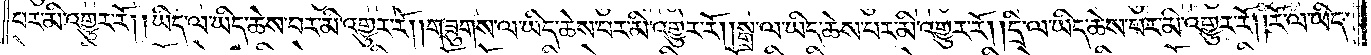པར་མི་འགྱུར་རོ། །ཡིད་ལ་ཡིད་ཆེས་པར་མི་འགྱུར་རོ། །གཟུགས་ལ་ཡིད་ཆེས་པར་མི་འགྱུར་རོ། །སྒྲ་ལ་ཡིད་ཆེས་པར་མི་འགྱུར་རོ། །དྲི་ལ་ཡིད་ཆེས་པར་མི་འགྱུར་རོ། །རོ་ལ་ཡིད་
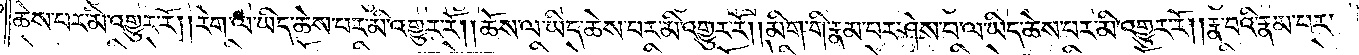ཆེས་པར་མི་འགྱུར་རོ། །རེག་ལ་ཡིད་ཆེས་པར་མི་འགྱུར་རོ། །ཆོས་ལ་ཡིད་ཆེས་པར་མི་འགྱུར་རོ། །མིག་གི་རྣམ་པར་ཤེས་པ་ལ་ཡིད་ཆེས་པར་མི་འགྱུར་རོ། །རྣ་བའི་རྣམ་པར་
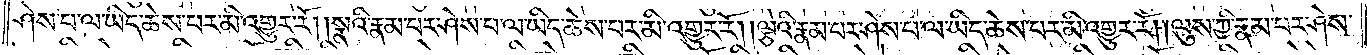ཤེས་པ་ལ་ཡིད་ཆེས་པར་མི་འགྱུར་རོ། །སྣའི་རྣམ་པར་ཤེས་པ་ལ་ཡིད་ཆེས་པར་མི་འགྱུར་རོ། །ལྕེའི་རྣམ་པར་ཤེས་པ་ལ་ཡིད་ཆེས་པར་མི་འགྱུར་རོ། །ལུས་ཀྱི་རྣམ་པར་ཤེས་
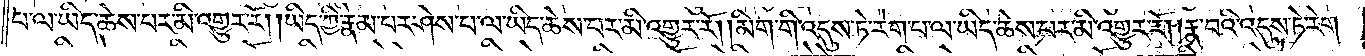པ་ལ་ཡིད་ཆེས་བར་མི་འགྱུར་རོ། །ཡིད་ཀྱི་རྣམ་པར་ཤེས་པ་ལ་ཡིད་ཆེས་པར་མི་འགྱུར་རོ། །མིག་གི་འདུས་ཏེ་རེག་པ་ལ་ཡིད་ཆེས་པར་མི་འགྱུར་རོ། །རྣ་བའི་འདུས་ཏེ་རེག་
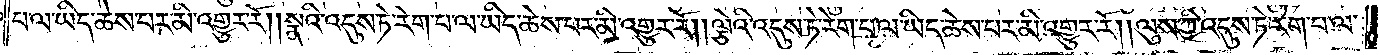པ་ལ་ཡིད་ཆེས་པར་མི་འགྱུར་རོ། །སྣའི་འདུས་ཏེ་རེག་པ་ལ་ཡིད་ཆེས་པར་མི་འགྱུར་རོ། །ལྕེའི་འདུས་ཏེ་རེག་པ་ལ་ཡིད་ཆེས་པར་མི་འགྱུར་རོ། །ལུས་ཀྱི་འདུས་ཏེ་རེག་པ་ལ་
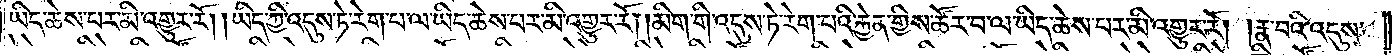ཡིད་ཆེས་པར་མི་འགྱུར་རོ། །ཡིད་ཀྱི་འདུས་ཏེ་རེག་པ་ལ་ཡིད་ཆེས་པར་མི་འགྱུར་རོ། །མིག་གི་འདུས་ཏེ་རེག་པའི་རྐྱེན་གྱིས་ཚོར་བ་ལ་ཡིད་ཆེས་པར་མི་འགྱུར་རོ། །རྣ་བའི་འདུས་
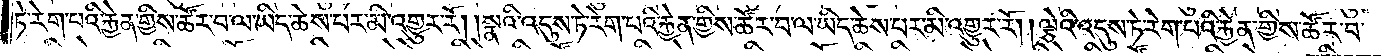ཏེ་རེག་པའི་རྐྱེན་གྱིས་ཚོར་བ་ལ་ཡིད་ཆེས་པར་མི་འགྱུར་རོ། །སྣའི་འདུས་ཏེ་རེག་པའི་རྐྱེན་གྱིས་ཚོར་བ་ལ་ཡིད་ཆེས་པར་མི་འགྱུར་རོ། །ལྕེའི་འདུས་ཏེ་རེག་པའི་རྐྱེན་གྱིས་ཚོར་བ་
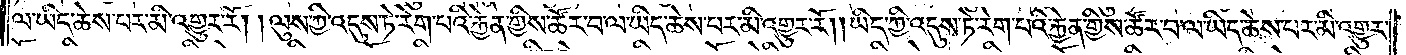ལ་ཡིད་ཆེས་པར་མི་འགྱུར་རོ། །ལུས་ཀྱི་འདུས་ཏེ་རེག་པའི་རྐྱེན་གྱིས་ཚོར་བ་ལ་ཡིད་ཆེས་པར་མི་འགྱུར་རོ། །ཡིད་ཀྱི་འདུས་ཏེ་རེག་པའི་རྐྱེན་གྱིས་ཚོར་བ་ལ་ཡིད་ཆེས་པར་མི་འགྱུར་
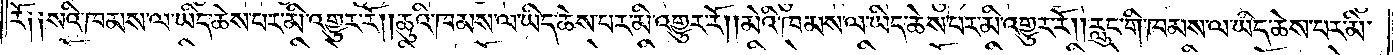རོ༑ ༑སའི་ཁམས་ལ་ཡིད་ཆེས་པར་མི་འགྱུར་རོ། །ཆུའི་ཁམས་ལ་ཡིད་ཆེས་པར་མི་འགྱུར་རོ། །མེའི་ཁམས་ལ་ཡིད་ཆེས་པར་མི་འགྱུར་རོ། །རླུང་གི་ཁམས་ལ་ཡིད་ཆེས་པར་མི་
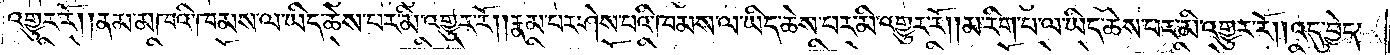འགྱུར་རོ། །ནམ་མཁའི་ཁམས་ལ་ཡིད་ཆེས་པར་མི་འགྱུར་རོ། །རྣམ་པར་ཤེས་པའི་ཁམས་ལ་ཡིད་ཆེས་པར་མི་འགྱུར་རོ། །མ་རིག་པ་ལ་ཡིད་ཆེས་པར་མི་འགྱུར་རོ། །འདུ་བྱེད་
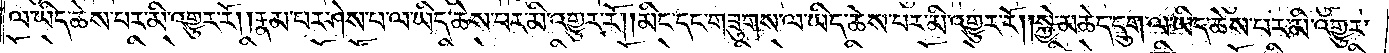ལ་ཡིད་ཆེས་པར་མི་འགྱུར་རོ། །རྣམ་པར་ཤེས་པ་ལ་ཡིད་ཆེས་པར་མི་འགྱུར་རོ། །མིང་དང་གཟུགས་ལ་ཡིད་ཆེས་པར་མི་འགྱུར་རོ། །སྐྱེ་མཆེད་དྲུག་ལ་ཡིད་ཆེས་པར་མི་འགྱུར་
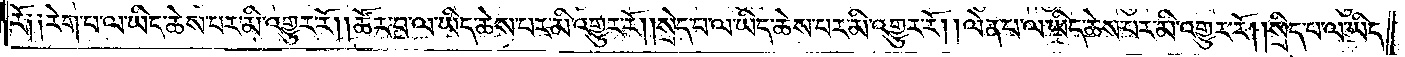རོ༑ ༑རེག་པ་ལ་ཡིད་ཆེས་པར་མི་འགྱུར་རོ། །ཚོར་བ་ལ་ཡིད་ཆེས་པར་མི་འགྱུར་རོ། །སྲེད་པ་ལ་ཡིད་ཆེས་པར་མི་འགྱུར་རོ། །ལེན་པ་ལ་ཡིད་ཆེས་པར་མི་འགྱུར་རོ། །སྲིད་པ་ལ་ཡིད་
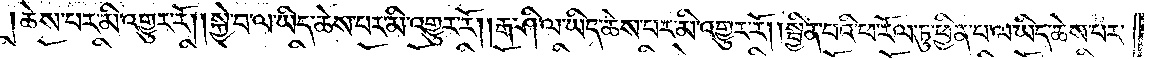ཆེས་པར་མི་འགྱུར་རོ། །སྐྱེ་བ་ལ་ཡིད་ཆེས་པར་མི་འགྱུར་རོ། །རྒ་ཤི་ལ་ཡིད་ཆེས་པར་མི་འགྱུར་རོ། །སྦྱིན་པའི་ཕ་རོལ་ཏུ་ཕྱིན་པ་ལ་ཡིད་ཆེས་པར་
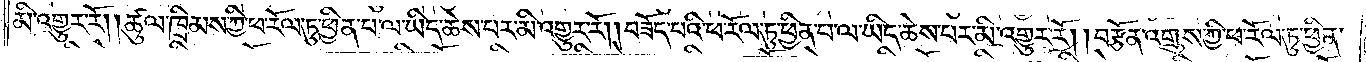མི་འགྱུར་རོ། །ཚུལ་ཁྲིམས་ཀྱི་ཕ་རོལ་ཏུ་ཕྱིན་པ་ལ་ཡིད་ཆེས་པར་མི་འགྱུར་རོ། །བཟོད་པའི་ཕ་རོལ་ཏུ་ཕྱིན་པ་ལ་ཡིད་ཆེས་པར་མི་འགྱུར་རོ། །བརྩོན་འགྲུས་ཀྱི་ཕ་རོལ་ཏུ་ཕྱིན་
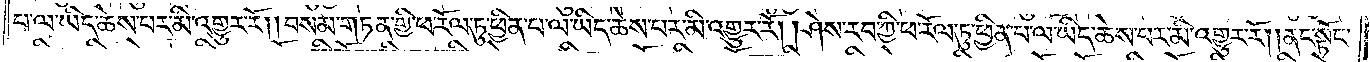པ་ལ་ཡིད་ཆེས་པར་མི་འགྱུར་རོ། །བསམ་གཏན་གྱི་ཕ་རོལ་ཏུ་ཕྱིན་པ་ལ་ཡིད་ཆེས་པར་མི་འགྱུར་རོ། །ཤེས་རབ་ཀྱི་ཕ་རོལ་ཏུ་ཕྱིན་པ་ལ་ཡིད་ཆེས་པར་མི་འགྱུར་རོ། །ནང་སྟོང་
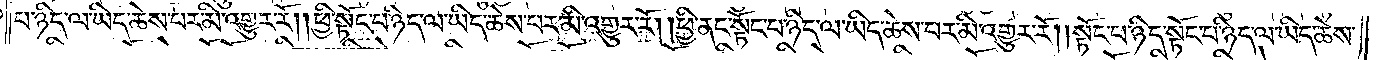པ་ཉིད་ལ་ཡིད་ཆེས་པར་མི་འགྱུར་རོ། །ཕྱི་སྟོང་པ་ཉིད་ལ་ཡིད་ཆེས་པར་མི་འགྱུར་རོ། །ཕྱི་ནང་སྟོང་པ་ཉིད་ལ་ཡིད་ཆེས་པར་མི་འགྱུར་རོ། །སྟོང་པ་ཉིད་སྟོང་པ་ཉིད་ལ་ཡིད་ཆེས་
